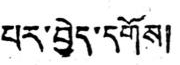པར་བྱེད་དགོས།
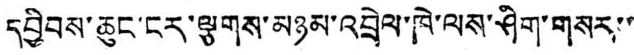དབྱིབས་ཆུང་ངར་ལྕགས་མཉམ་འབྲེལ་ཁེ་ལས་ཤིག་གསར་་
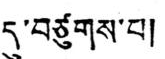དུ་བཙུགས་པ།
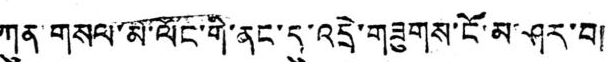ཀུན་གསལ་མེ་ལོང་གི་ནང་དུ་འདྲེ་གཟུགས་ངོ་མ་ཤར་བ།
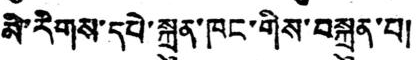མི་རིགས་དཔེ་སྐྲུན་ཁང་གིས་བསྐྲུན་པ།
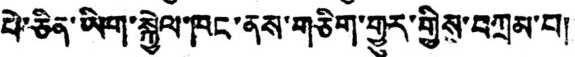པེ་ཅིན་ཡིག་སྐྱེལ་ཁང་ནས་གཅིག་གྱུར་གྱིས་བཀྲམ་པ།
